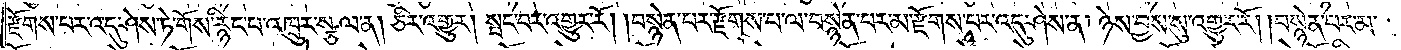རྫོགས་པར་འདུ་ཤེས་ཏེ་གོས་རྙིང་པ་འཁྲུར་སྩལ་ན། ཅིར་འགྱུར། སྤང་བར་འགྱུར་རོ། །བསྙེན་པར་རྫོགས་པ་ལ་བསྙེན་པར་མ་རྫོགས་པར་འདུ་ཤེས་ན། ཉེས་བྱས་སུ་འགྱུར་རོ། །བསྙེན་པར་མ་
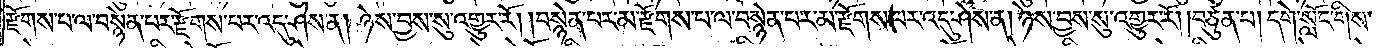རྫོགས་པ་ལ་བསྙེན་པར་རྫོགས་པར་འདུ་ཤེས་ན། ཉེས་བྱས་སུ་འགྱུར་རོ། །བསྙེན་པར་མ་རྫོགས་པ་ལ་བསྙེན་པར་མ་རྫོགས་པར་འདུ་ཤེས་ན། ཉེས་བྱས་སུ་འགྱུར་རོ། །བཙུན་པ། དགེ་སློང་གིས་
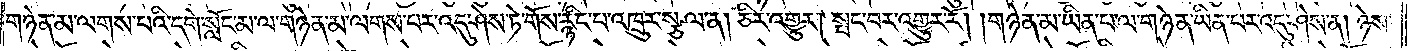གཉེན་མ་ལགས་པའི་དགེ་སློང་མ་ལ་གཉེན་མ་ལགས་པར་འདུ་ཤེས་ཏེ་གོས་རྙིང་པ་འཁྲུར་སྩལ་ན། ཅིར་འགྱུར། སྤང་བར་འགྱུར་རོ། །གཉེན་མ་ཡིན་པ་ལ་གཉེན་ཡིན་པར་འདུ་ཤེས་ན། ཉེས་
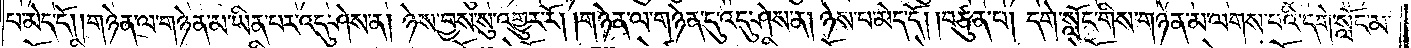པ་མེད་དོ། །གཉེན་ལ་གཉེན་མ་ཡིན་པར་འདུ་ཤེས་ན། ཉེས་བྱས་སུ་འགྱུར་རོ། །གཉེན་ལ་གཉེན་དུ་འདུ་ཤེས་ན། ཉེས་པ་མེད་དོ། །བཙུན་པ། དགེ་སློང་གིས་གཉེན་མ་ལགས་པའི་དགེ་སློང་མ་
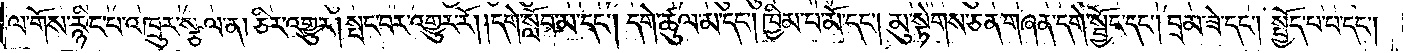ལ་གོས་རྙིང་པ་འཁྲུར་སྩལ་ན། ཅིར་འགྱུར། སྤང་བར་འགྱུར་རོ། །དགེ་སློབ་མ་དང༌། དགེ་ཚུལ་མ་དང༌། ཁྱིམ་པ་མོ་དང༌། མུ་སྟེགས་ཅན་གཞན་དགེ་སྦྱོང་དང༌། བྲམ་ཟེ་དང༌། སྤྱོད་པ་པ་དང༌།
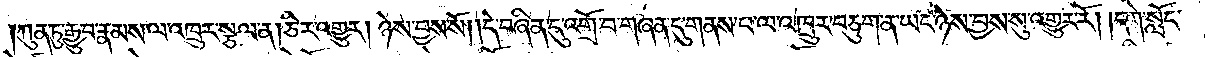།ཀུན་ཏུ་རྒྱུ་བ་རྣམས་ལ་འཁྲུར་སྩལ་ན།ཅིར་འགྱུར། ཉེས་བྱས་སོ། །དེ་བཞིན་དུ་འགྲོ་བ་གཞན་དུ་གནས་པ་ལ་འཁྲུར་བཅུག་ན་ཡང་ཉེས་བྱས་སུ་འགྱུར་རོ། །དགེ་སློང་
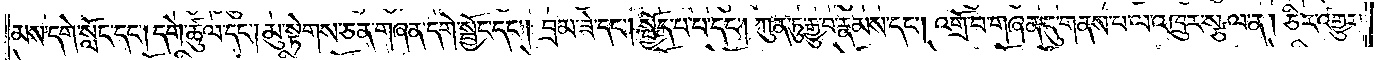མས་དགེ་སློང་དང༌། དགེ་ཚུལ་དང༌། མུ་སྟེགས་ཅན་གཞན་དགེ་སྦྱོང་དང༌། བྲམ་ཟེ་དང༌། སྤྱོད་པ་དང༌། ཀུན་ཏུ་རྒྱུ་བ་རྣམས་དང༌། འགྲོ་བ་གཞན་དུ་གནས་པ་ལ་འཁྲུར་སྩལ་ན། ཅིར་འགྱུར་
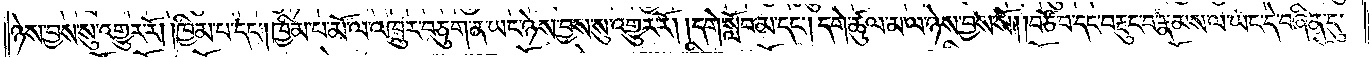ཉེས་བྱས་སུ་འགྱུར་རོ། །ཁྱིམ་པ་དང༌། ཁྱིམ་པ་མོ་ལ་འཁྲུར་བཅུག་ན་ཡང་ཉེས་བྱས་སུ་འགྱུར་རོ། །དགེ་སློབ་མ་དང༌། དགེ་ཚུལ་མ་ལ་ཉེས་བྱས་སོ། །བཙོ་བ་དང་བརྡུང་བ་རྣམས་ལ་ཡང་དེ་བཞིན་དུ་
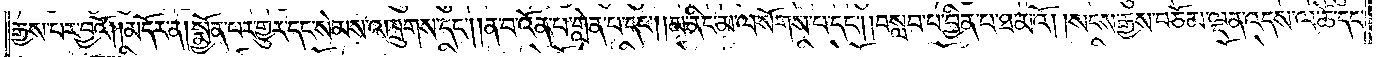རྒྱས་པར་བྱའོ། །མདོར་ན།སྨྱོན་པར་གྱུར་དང་སེམས་འཁྲུགས་དང༌། །ན་བ་འོན་པ་གླེན་པ་དང༌། །མ་ནིང་མ་ལ་སོགས་པ་དང༌། །བསླབ་པ་བྱིན་པ་ཐ་མའོ། །སངས་རྒྱས་བཅོམ་ལྡན་འདས་ལ་ཚེ་དང་
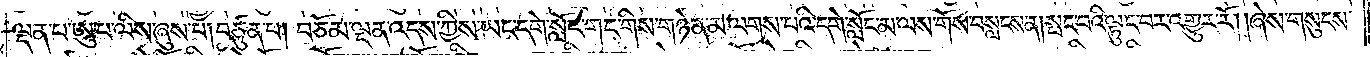ལྡན་པ་ཨུ་པ་ལིས་ཞུས་པ། བཙུན་པ། བཅོམ་ལྡན་འདས་ཀྱིས་ཡང་དགེ་སློང་གང་གིས་གཉེན་མ་ལགས་པའི་དགེ་སློང་མ་ལས་གོས་བསླངས་ན། སྤང་བའི་ལྟུང་བར་འགྱུར་རོ། །ཞེས་གསུངས་
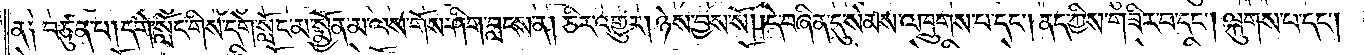ན༑ བཙུན་པ། དགེ་སློང་གིས་དགེ་སློང་མ་སྨྱོན་མ་ལས་གོས་ཤིག་བླངས་ན། ཅིར་འགྱུར། ཉེས་བྱས་སོ། །དེ་བཞིན་དུ་སེམས་འཁྲུགས་པ་དང༌། ནད་ཀྱིས་གཟིར་བ་དང༌། ལྐུགས་པ་དང༌།
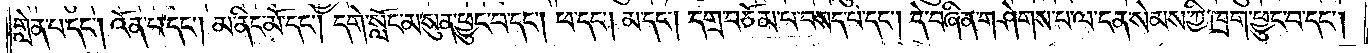གླེན་པ་དང༌། འོན་པ་དང༌། མ་ནིང་མོ་དང༌། དགེ་སློང་མ་སུན་ཕྱུང་བ་དང༌། ཕ་དང༌། མ་དང༌། དགྲ་བཅོམ་པ་བསད་པ་དང༌། དེ་བཞིན་གཤེགས་པ་ལ་ངན་སེམས་ཀྱི་ཁྲག་ཕྱུང་བ་དང༌།
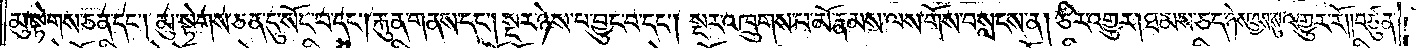མུ་སྟེགས་ཅན་དང༌། མུ་སྟེགས་ཅན་དུ་སོང་བ་དང༌། རྐུན་གནས་དང༌། སྔར་ཉེས་པ་བྱུང་བ་དང༌། སྔར་འཁྲུགས་པ་མོ་རྣམས་ལས་གོས་བསླངས་ན། ཅིར་འགྱུར། ཐམས་ཅད་ཉེས་བྱས་སུ་འགྱུར་རོ། །བཙུན་
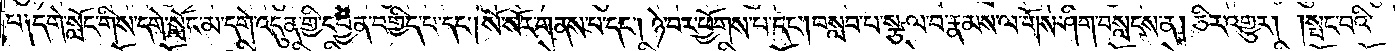པ༑ དགེ་སློང་གིས་དགེ་སློང་མ་དགེ་འདུན་གྱི་དབྱེན་བགྱིད་པ་དང༌། སོ་སོར་གནས་པ་དང༌། ཉེ་བར་ཕྱོགས་པ་དང༌། བསླབ་པ་སྩལ་པ་རྣམས་ལ་གོས་ཤིག་བསླངས་ན། ཅིར་འགྱུར། །སྤང་བའི་
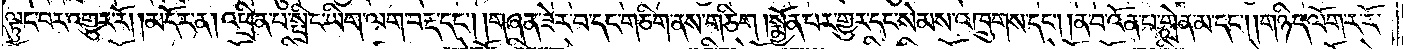ལྟུང་བར་འགྱུར་རོ། །མདོར་ན། འཕྲིན་པ་སྤྲིང་ཡིག་ལག་བརྡ་དང༌། །གཞན་ཟེར་བ་དང་གཅིག་ནས་གཅིག །སྨྱོན་པར་གྱུར་དང་སེམས་འཁྲུགས་དང༌། །ན་བ་འོན་པ་གླེན་མ་དང༌། །གཉིད་ལོག་ར་རོ་
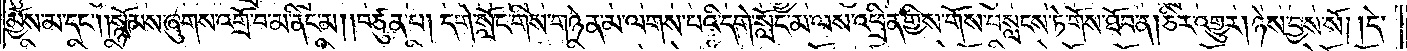མྱོས་མ་དང༌། །སྙོམས་ཞུགས་འགྲོ་བ་མ་ནིང་མ། །བཙུན་པ། དགེ་སློང་གིས་གཉེན་མ་ལགས་པའི་དགེ་སློང་མ་ལས་འཕྲིན་གྱིས་གོས་བསླངས་ཏེ་གོས་ཐོབ་ན། ཅིར་འགྱུར། ཉེས་བྱས་སོ། །དེ་
